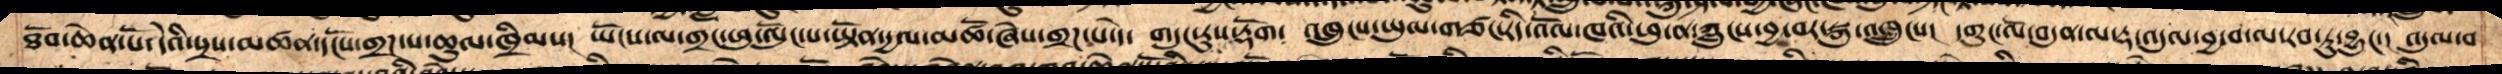ཐོབ་ཆེན་པོ་དེའི་སྲས་མཚན་དངོས་གྲཌ་པ་ཚུལ་ཁྲིམས། ཡོངས་ལ་གྲང་ཕུ་ལུང་པ་ཡྟོན་དྱལ་མཚོ་ཞེས་གྲཌ་པ་དེ་ གདུང་རུས་རྟོག་ འཁྲུངས་ཡུལ་གཙང་རིད་འོལ་ཁའི་ཕུ་ན་ཀླུངས་བྱ་བར་སྐུ་འཁྲུངས། དགུང་ལོ་བདུན་ལ་རྡ་འདུལ་བྱ་བ་ལ་རབ་ཏུ་བྱུང་། འདུལ་བ་
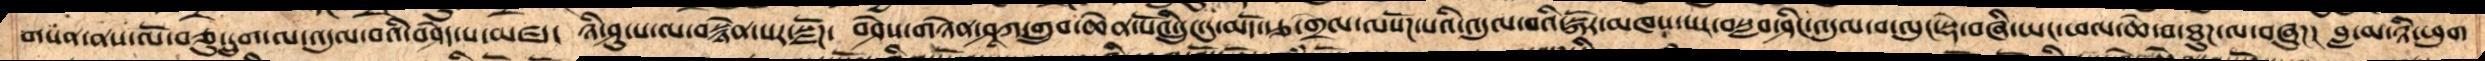གསན་ནས་ལོ་བཅུ་དྲུག་ལ་འདུལ་བའི་བཤེད་པ་མཛད།  ཉི་ཤུ་པ་ལ་བསྙེན་པར་སྫོཌ་  བཤེས་གཉེན་ཤཱཀ་གྲུབ་ཆེན་པོའི་དྲུང་དུ་མདོ་རྩ་གྲེལ་ལསོཌ་པའི་འདུལ་བའི་སྐོར་མཁས་པར་བསླབ་ཤིང་འདུལ་བ་ལུང་སྡེ་བཞི་ཡང་ཕལ་ཆེ་བ་ཐུཌ་ལ་བཞུཌ།   བླ་མ་ཉི་ཕུག
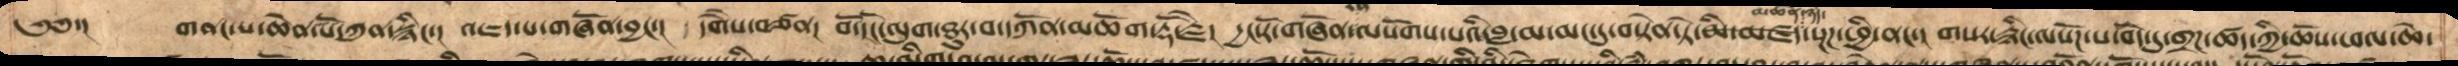༄༅་།   གནང་པ་ཆེན་པོ་ཀུན་སྙིང་། འཇད་པ་གཞོན་བྱང་། དགཻས་བཙན། བོ་དོང་ལུག་ཐུར་བ་དཀོན་མཆོག་རྡོ་རྗེ། དྱང་རོ་གཞོན་ལསོགས་པའི་བླ་མ་མང་དུ་བསྟེན་ཏེ་མཚན་ཉིད་སྔཌ་ཕྱི་ནང་། གསར་རྙིང་ལསོཌ་པ་བོད་དུ་གྲཌ་ཚད་ཀྱི་ཆོས་ཕལ་ཆེ་
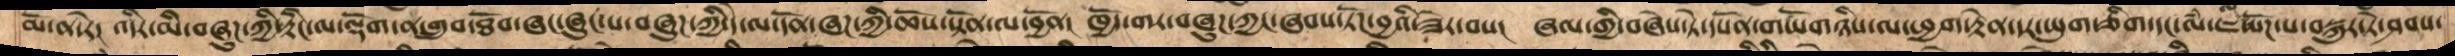མོ་ན་རེ།  འདིར་མི་བཞུཌ་ཀྱི་རྟིང་ལ་ལྡོག་ན་གྲུབ་ཐོབ་ཞང་ཞུང་པ་བཞུཌ་ཀྱི་དེ་ལ་དོན་ཞཌ་ཀྱི་ཆོས་སྟོན་ལ་བྱོན།  ཁྱོད་གར་བཞུཌ་ཀྱང་ཞབས་ཏོཌ་བྱའི་ཟེར་བས།  ཞལ་གྱི་བཞེས་ཏེ་དཔོན་གཡོགཉིས་ལ་ཕྱག་རྟེན་དར་ཡུག་ཅིག་དང་ལཾ་ཇ་སོཌ་པ་བསྐུར་ཏེ་ཤབས་
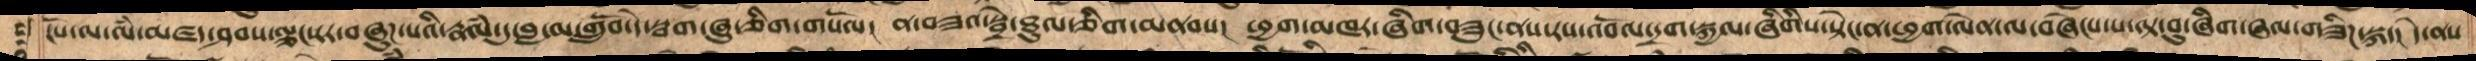ངོས་ལ་ལཾ་མཛད་ཤབས་ལྕང་རར་བཞུཌ་པའི་རྣལཾ་དུ་བླ་མ་གྲོུབ་དེ་སྦག་ཞུ་ཅིག་གསོལ། ན་བཟའ་སྦྲེ་ཐུལ་ཅིག་མནབས། ཕྱག་མཁར་ཞིག་བཟུང་ནས་རས་འབོལ་དྲག་སྐྱལ་ཞིགིས་སྟེང་ན་ཕྱག་ལེན་ལ་བཞེངས་པ་ལྟ་བུ་ཞིག་ཞལ་གཟིཌ་སྐད། དེ་ནས་
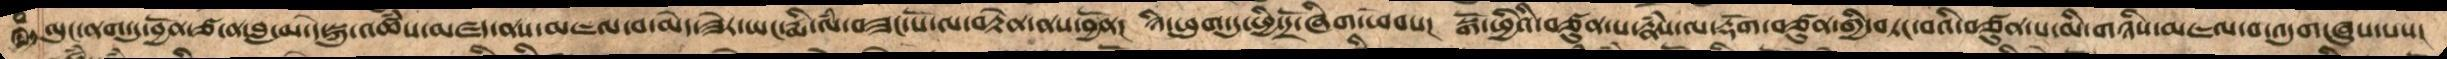ལུང་ནག་དུ་བྱོན་ཙ་ན་བླ་མ་དེ་སྐུ་འཚཾས་མཛད་ནས་མཇལ་བ་མེད་ཟེར་ཡང་རྨི་ལཾ་བཟང་པོ་ལ་བརྟེན་ནས་བྱོན།  ཉི་ཕུག་དུ་ཕྱི་དྲོ་ཞིག་ཕེབས།  སྒོ་ཕྱིའི་བཙུན་པ་རྣཾས་ལ་རྡོག་བཙུན་གྱི་བཏང་བའི་བཙུན་པ་མི་གཉིས་མཇལ་བ་འདུག་ཞུས་པས།
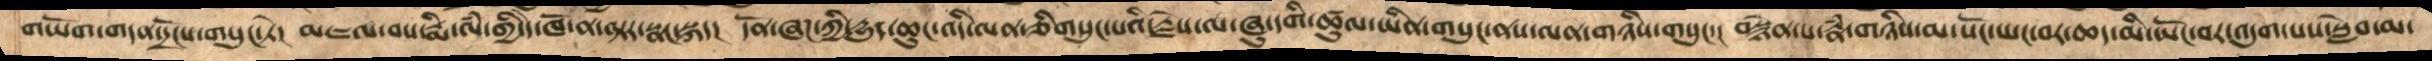གཡོག་གདན་དྲོངས་གསུང་ཏེ།  མཇལ་བས་རྨི་ལཾ་གྱི་དེ་ཁོ་ན་ལྟར་སྣང་སྐད།  དོན་ཞཌ་ཀྱི་དྱུད་ཆུང་འདི་ལན་ཅིགསུངས་པའི་རྗེས་ལ་ཞུ་དགི་ཚུལ་ཡིན་གསུང་ནས་ལན་གཉིས་གསུང་།  བསྙེན་པ་རྣཾ་གཉིས་མ་སོང་ཡང་བར་ཆད་མི་ཡོང་བར་འདུག་པས་སླེབ་མ་
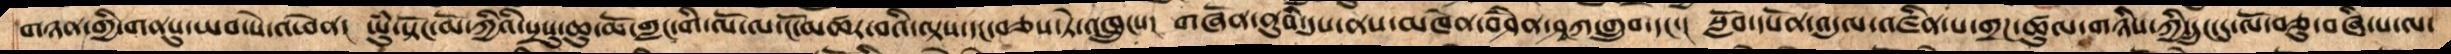མཉེན་གྱི་གནསུ་ཡབ་སེ་འཕེན།  ཡུཾ་སྟོང་མོ་ཀྱིའི་སྲསུ་ཆུ་མོ་གླང་གི་ལོ་ལ་ངོ་མཚར་བའི་ལྟས་དང་བཅས་ཏེ་འཁྲུངས།  གཞོན་ནུའི་དུས་ནས་མཁེན་བཤཻན་ཤཱཀ་གྲུབ་དང་།  སློབ་དཔོན་འདུལ་འཛིན་པ་གྲཌ་ཚུལ་གཉིས་ཀྱི་དྲུང་དུ་ལོ་བཅུ་བཞི་པ་ལ་
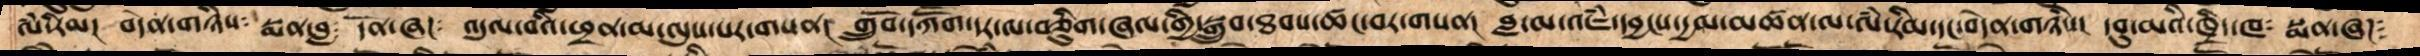ལཾ་རིམ།  བདེན་གཉིས༴  སྨན་བླ༴  དོན་ཞཌ༴ འདུལ་བའི་ཕྲན་མ་ལུས་པར་གསན། གྲུབོ་དཀཽག་དར་ལ་བཅིུག་ཞལ་གྱི་སྒྲུབ་ཐབས་ཚང་བར་གསན།  བླ་མ་འཇཾ་དབྱངས་དྱལ་མཚན་ལ་ལཾ་རིམ་དང་བདེན་གཉིས་  དབུ་མའི་ཁྲིད་ཁ༴ སྨན་ཞཌ༴
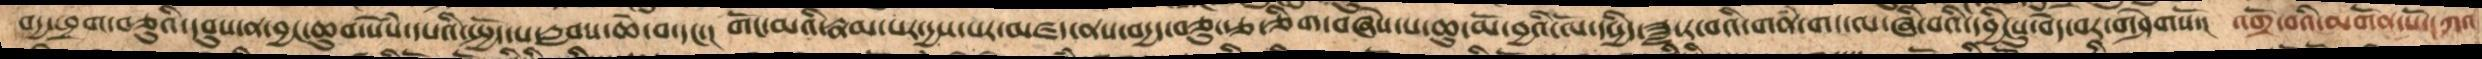བདྱ་ཕྲག་བཅུའི་དབུས་ན་བྱང་ཆུབ་སེཾས་དཔའི་སྤྱོད་པ་རླབས་ཆེ་བ་དང་།  གོང་མའི་རྣམ་པར་དྱས་པར་མཛད་ནས་བདྱད་ཅུ་རྩ་ཅིག་བཞེས་པ་ཆུ་མོ་བྱའི་ལོ་དཔྱིད་ཟླ་ར་བའི་གནཾ་གང་ལ་ཞི་བའི་དབྱིངསུ་བདེ་བར་གཤེགསོ།  འགྲོ་བའི་མགོན་པོ་དཀའ
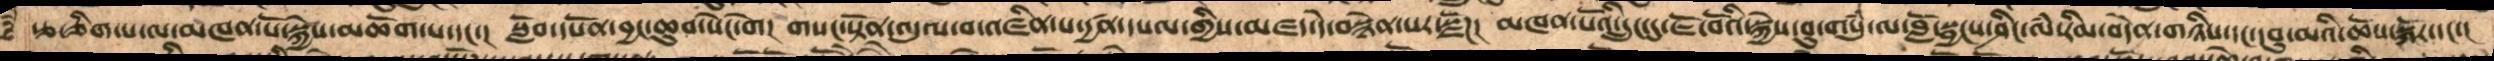རྩ་ཅིག་པ་ལ་མཁན་པོ་སྐྱེས་མཆོག་པ་དང་།  སློབ་དཔོན་བྱང་ཆུབ་སེང་གེ། གསང་སྟོན་འདུལ་བ་འཛིན་པ་དྱཚན་དཔལ་གྱིས་མཛད་དེ་བསྙེན་པར་སྫོཌ། མཁན་པོའི་དྲུང་དུ་ཇོ་བོའི་སྐྱེས་བུ་གསུཾ་ལ་བློ་སྦྱངས་ཤིང་ལཾ་རིམ་བདེན་གཉིས་དང་དབུ་མའི་ཆོས་སྐོར་དང་།
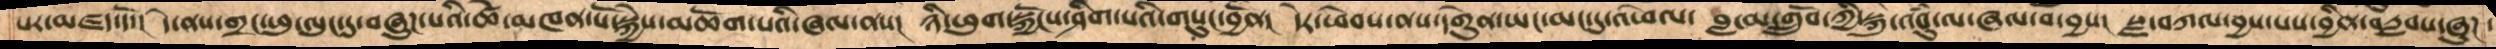པར་མཛད་དོ།  དེ་ནས་གྲང་ཕུ་ལུང་དུ་བཞུཌ་པའི་ཚེ་མཁན་པོ་སྐྱེས་མཆོག་པའི་ཞལ་ནས།  ཉིད་ཕུག་སྐྱོངས་ཤིག་པའི་གསུང་བྱོན།  དེར་ཕེབས་ནས་དགེུན་ཡང་མང་དུ་འཕེལ།  བླ་མ་གྲོུབ་ཀྱི་སྐུ་འབུཾ་ལ་ཞལ་བ་བྱས།  སླ་བཀལ་བྱས་པས་བྱིན་བརླབས་ཞུཌ།
